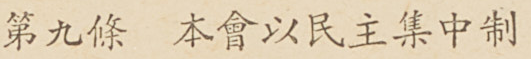第九條 本會以民主集中制
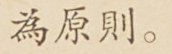為原則。
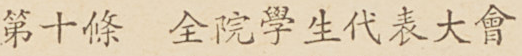第十條 全院學生代表大會
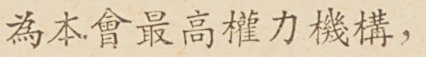為本會最高權利機構，
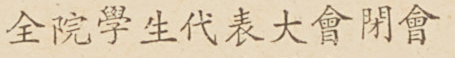全院學生代表大會閉會
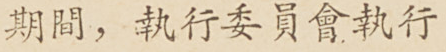期間，執行委員會執行
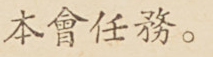本會任務。
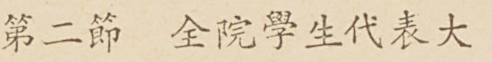第二節 全院學生代表大
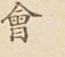會
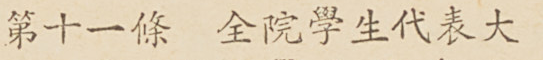第十一條 全院學生代表大
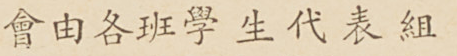會由各班學生代表組
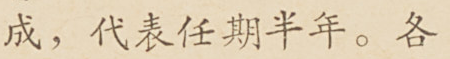成，代表任期半年。各
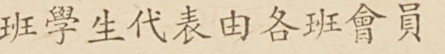班學生代表由各班會員
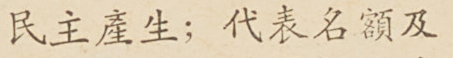民主產生；代表名額及
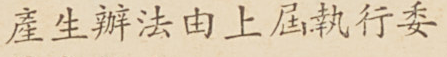產生辦法由上屆執行委
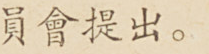員會提出。
